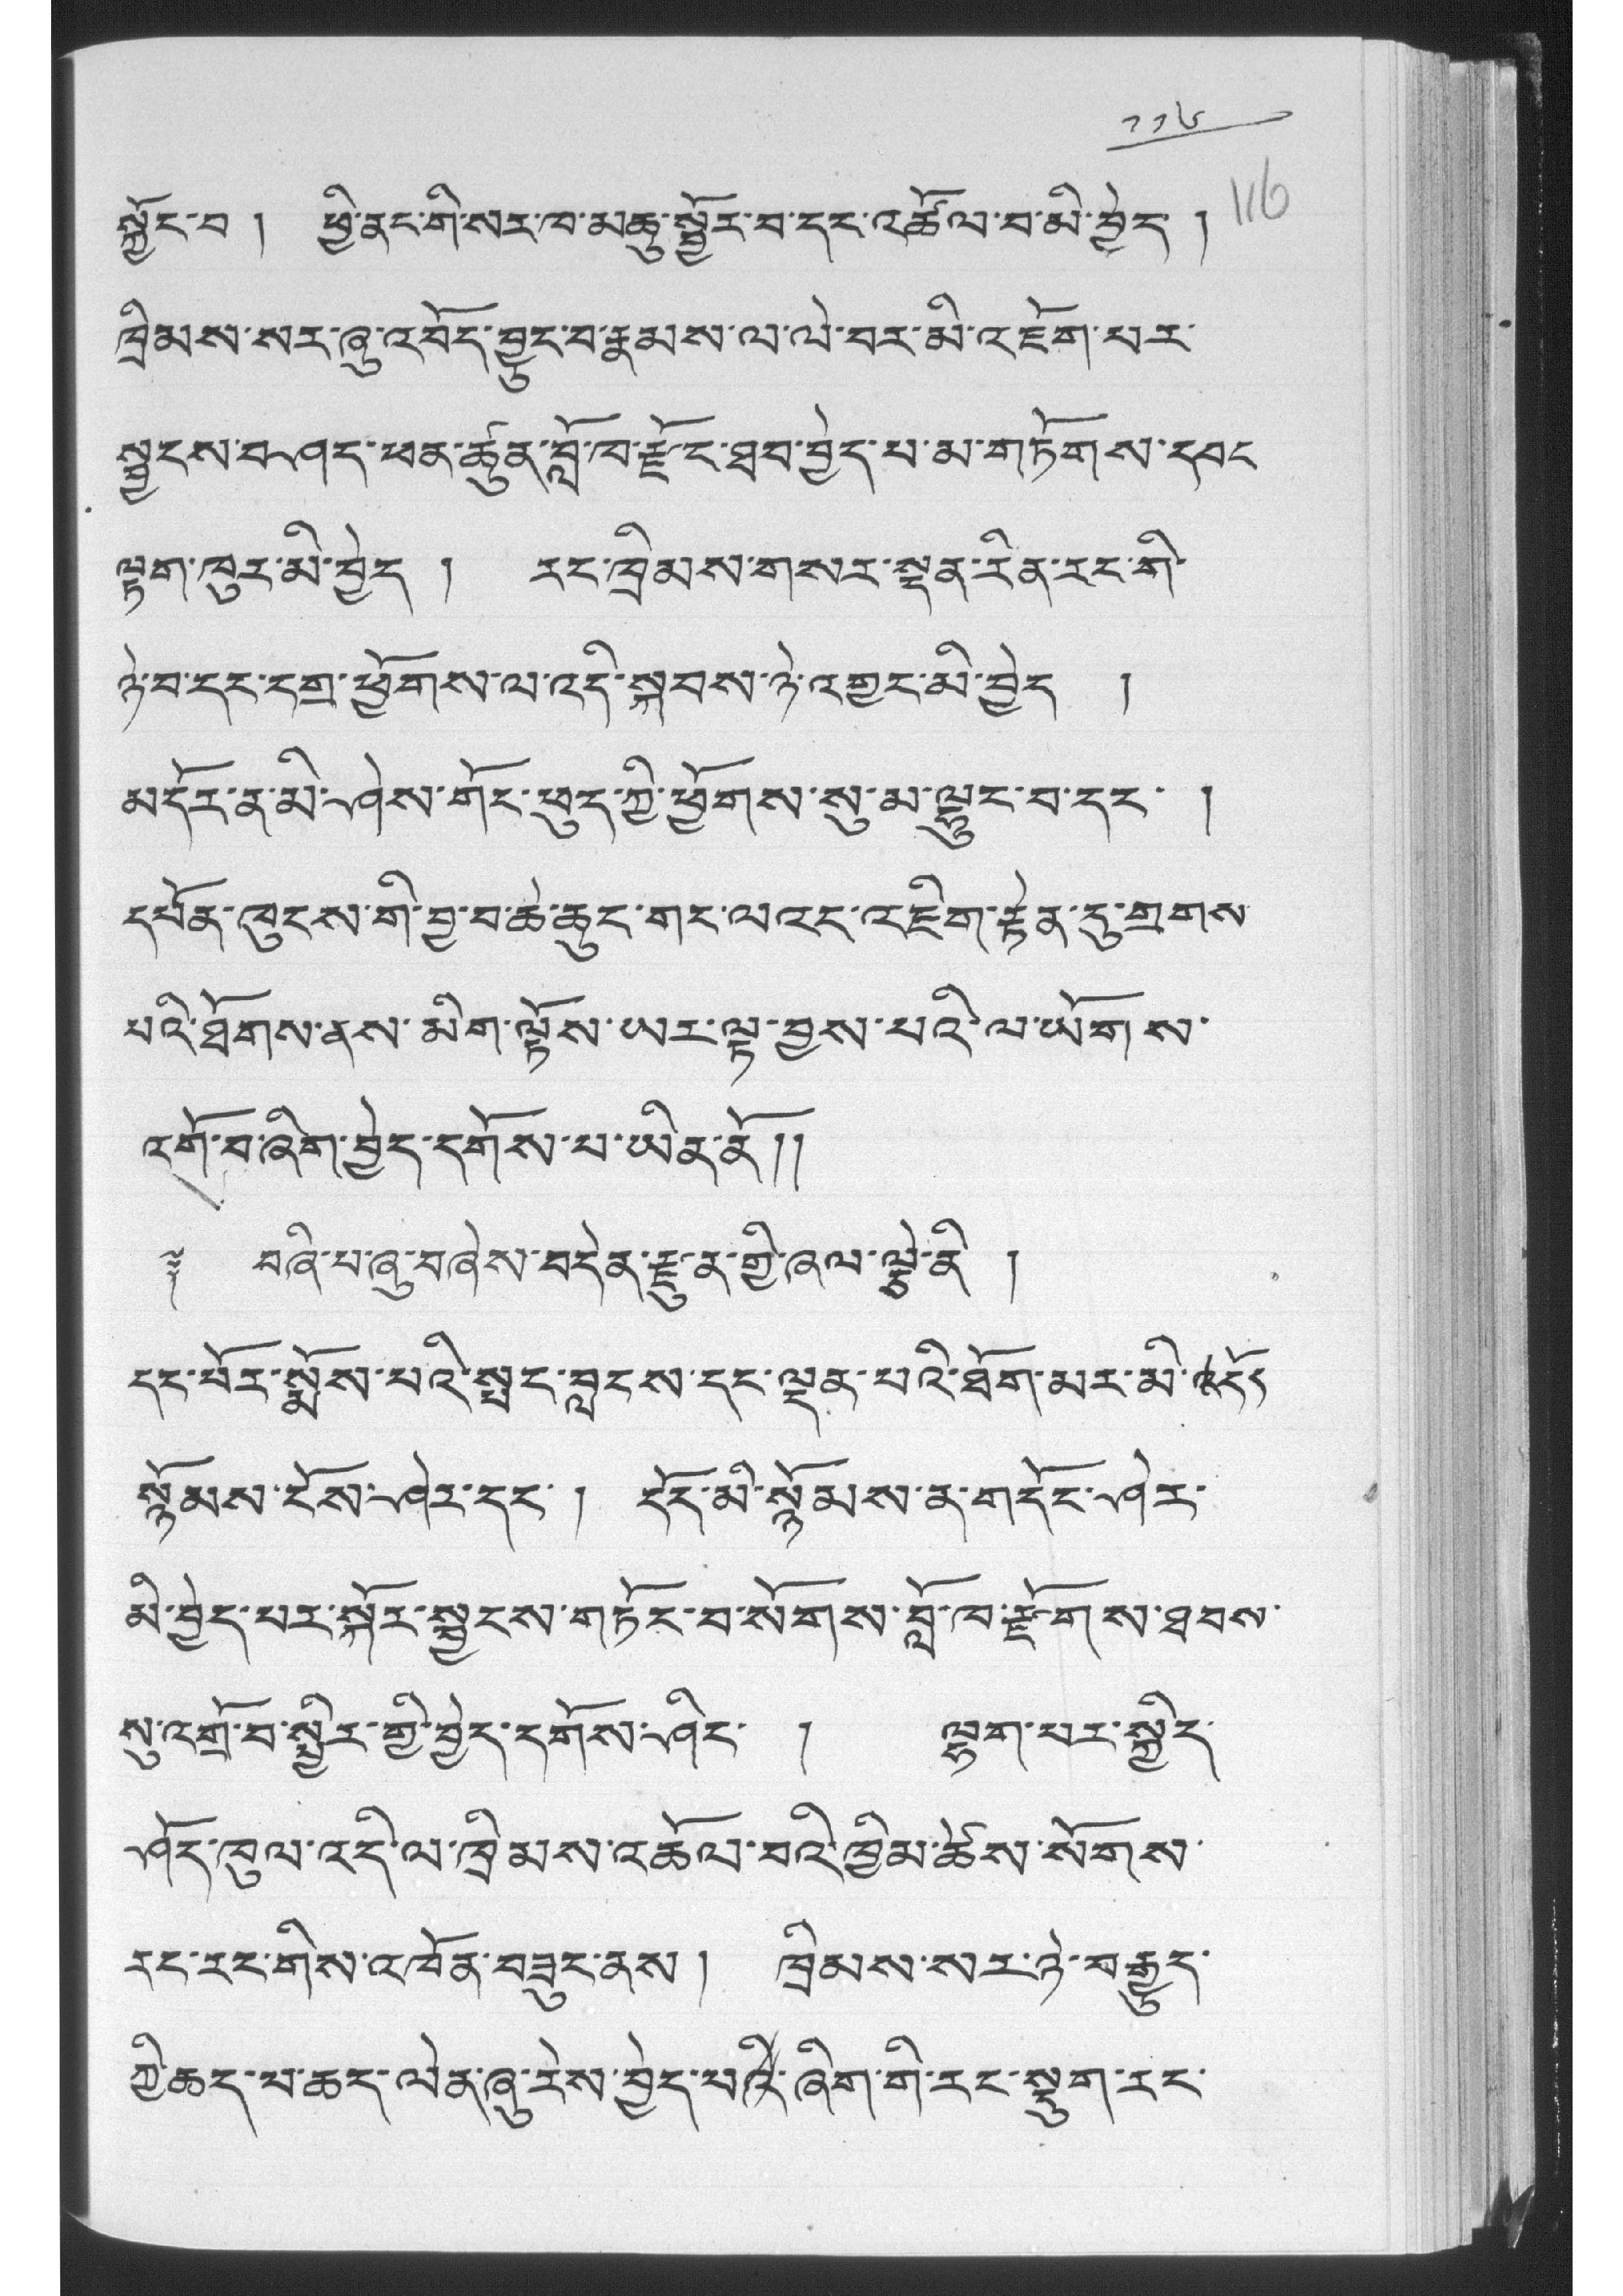༡༡༦
སྐྱོང་བ ། ཕྱི་ནང་གི་སར་ཁ་མཆུ་སྦྱོར་བ་དང་འཚོལ་བ་མི་ཕྱེད་ །
ཁྲིམས་སར་ཞུ་འབོད་བྱུང་བ་རྣམས་ལ་ལེ་བར་མི་འཇོག་པར་
སྦྱངས་བཤད་ཕན་ཚུན་བློ་ཁ་རྫོང་ཐབ་བྱེད་པ་མ་གཏོགས་དབང་
ལྟག་ཁུར་མི་བྱེད ། རང་ཁྲིམས་གསར་ལྡན་རིན་རང་གི་
ཉེ་བ་དང་དགྲ་ཕྱོགས་ལ་འདི་སྐབས་ཉེ་འགྱང་མི་བྱེད །
མདོར་ན་མི་ཤེས་གོང་ཕུད་ཀྱི་ཕྱོགས་སུ་མ་ལྷུང་བ་དང་ །
དཔོན་ཁུངས་གི་བྱ་བ་ཆེ་ཆུང་གང་ལའང་འཇིག་རྟེན་དུ་གྲགས་
པའི་ཐོགས་ནས་མིག་ལྟོས་ཡར་ལྟ་བྱས་པའི་ལ་ཡོགས་
འགྲ་བ་ཞིག་བྱེད་དགོས་པ་ཡིན་ནོ།།
༈ བཞི་པ་ཞུ་བཞེས་བདེན་རྫུན་གྱི་ཞལ་ལྕེ་ནི །
དར་པོར་སྨོས་པའི་སྤང་བླངས་དང་ལྡན་པའི་ཐོག་མར་མི་འདོད་
སྙོམས་ངོས་ཤེར་དང་། དོད་མི་སྙོམས་ན་གདོང་ཤེར་
མི་བྱེད་པར་སྐོར་སྦྱངས་གཏོང་བ་སོགས་བློ་ཁ་རྫོགས་ཐབས་
སུ་འགྲོ་བ་སྤྱིར་གྱི་བྱེད་དགོས་ཤིང་ ། ལྷག་པར་སྐྱིད་
ཤོད་ཁུལ་འདི་ལ་ཁྲིམས་འཆོལ་བའི་ཁྱིམ་ཚེས་སོགས་
རང་རང་གིས་འཁོན་བཟུང་ནས། ཁྲིམས་སར་ཉེ་བརྒྱུད་
ཀྱི་ཆད་ལ་ཆད་ལེན་ཞུ་རེས་བྱེད་པའི་ཞིག་གི་རང་སྡུག་རང་
